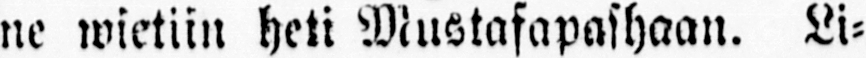ne wietiin heti Mustafapashaan. Li-
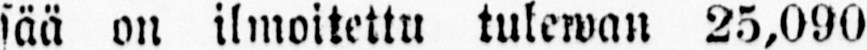sää on ilmoitettu tulewan 25,090
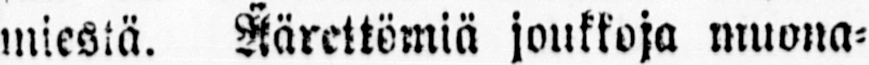miestä. Äärettömiä joukkoja muona-
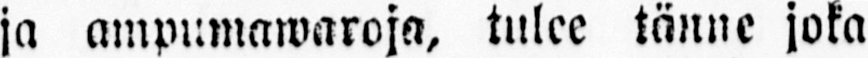ja ampumawaroja, tulee tänne joka
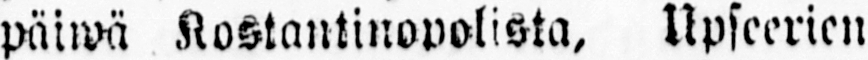päiwä Kostantinopolista, Upseerien
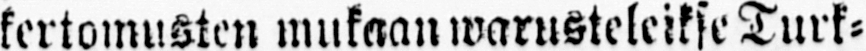kertomusten mukaan warusteleikse Turk-
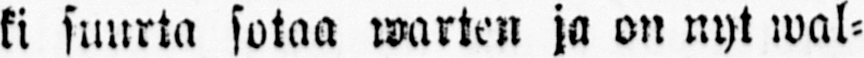ki suurta sotaa warten ja on nyt wal-
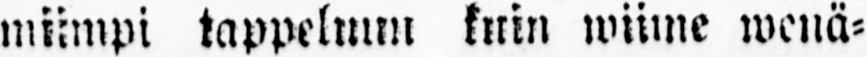miimpi tappeluun kuin wiime wenä-
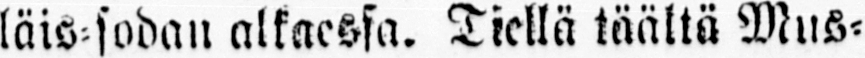läis-sodan alkaessa. Tiellä täältä Mus-
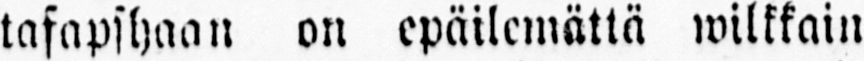tafapshaan on epäilemättä wilkkain
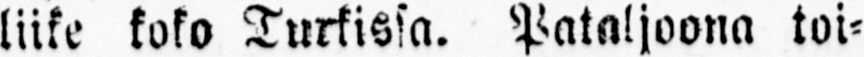liike koko Turkissa. Pataljoona toi-
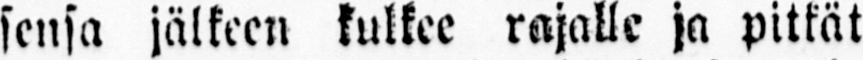sensa jälkeen kulkee rajalle ja pitkät
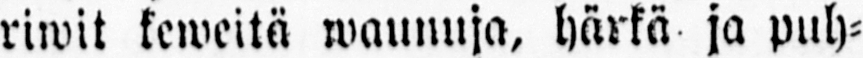riwit keweitä waunuja, härkä ja puh-
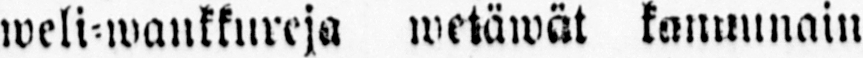weli-wankkureja wetäwät kanuunain
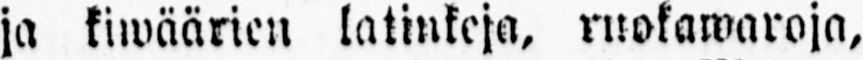ja kiwäärien latinkeja, ruokawaroja,
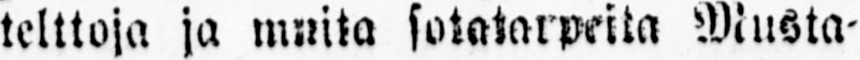telttoja ja maita sotatar peita Musta-
